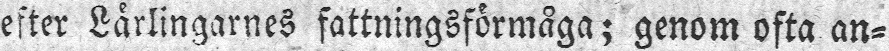efter Lärlingarnes fattningsförmåga; genom ofta an-
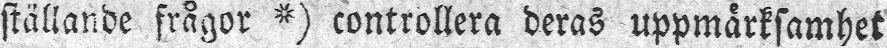ställande frågor *) controllera deras uppmärksamhet
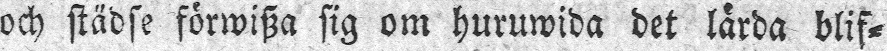och städse förwisza sig om huruwida det lärda blif-
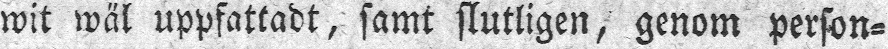wit wäl uppfattadt, samt slutligen, genom person-
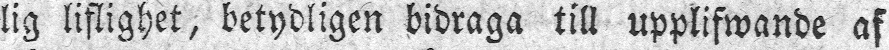lig liflighet, betydligen bidraga till upplifwande af
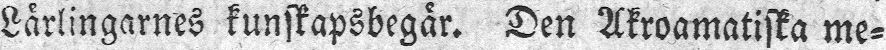Lärlingarnes kunskapsbegär. Den Akroamatiska me-
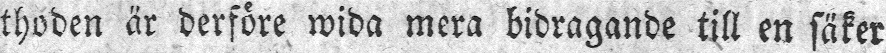thoden är derföre wida mera bidragande till en säker
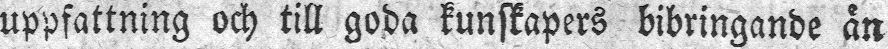uppfattning och till goda kunskapers bibringande än
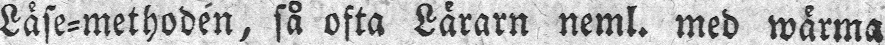Läse-methoden, så ofta Lärarn neml. med wärma
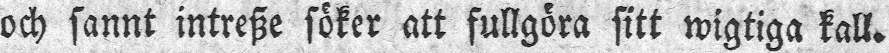och sannt intresze söker att fullgöra sitt wigtiga kall.
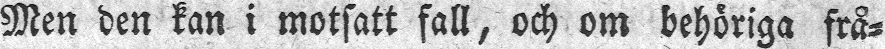Men den kan i motsatt fall, och om behöriga frå-
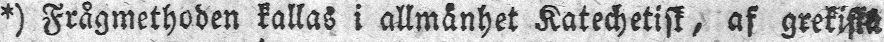*) Frågmethoden kallas i allmänhet Katechetisk, af grekiska
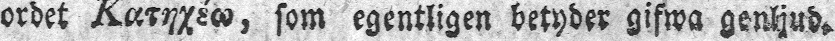ordet Κατηχέω, som egentligen betyder gifwa genljud.
